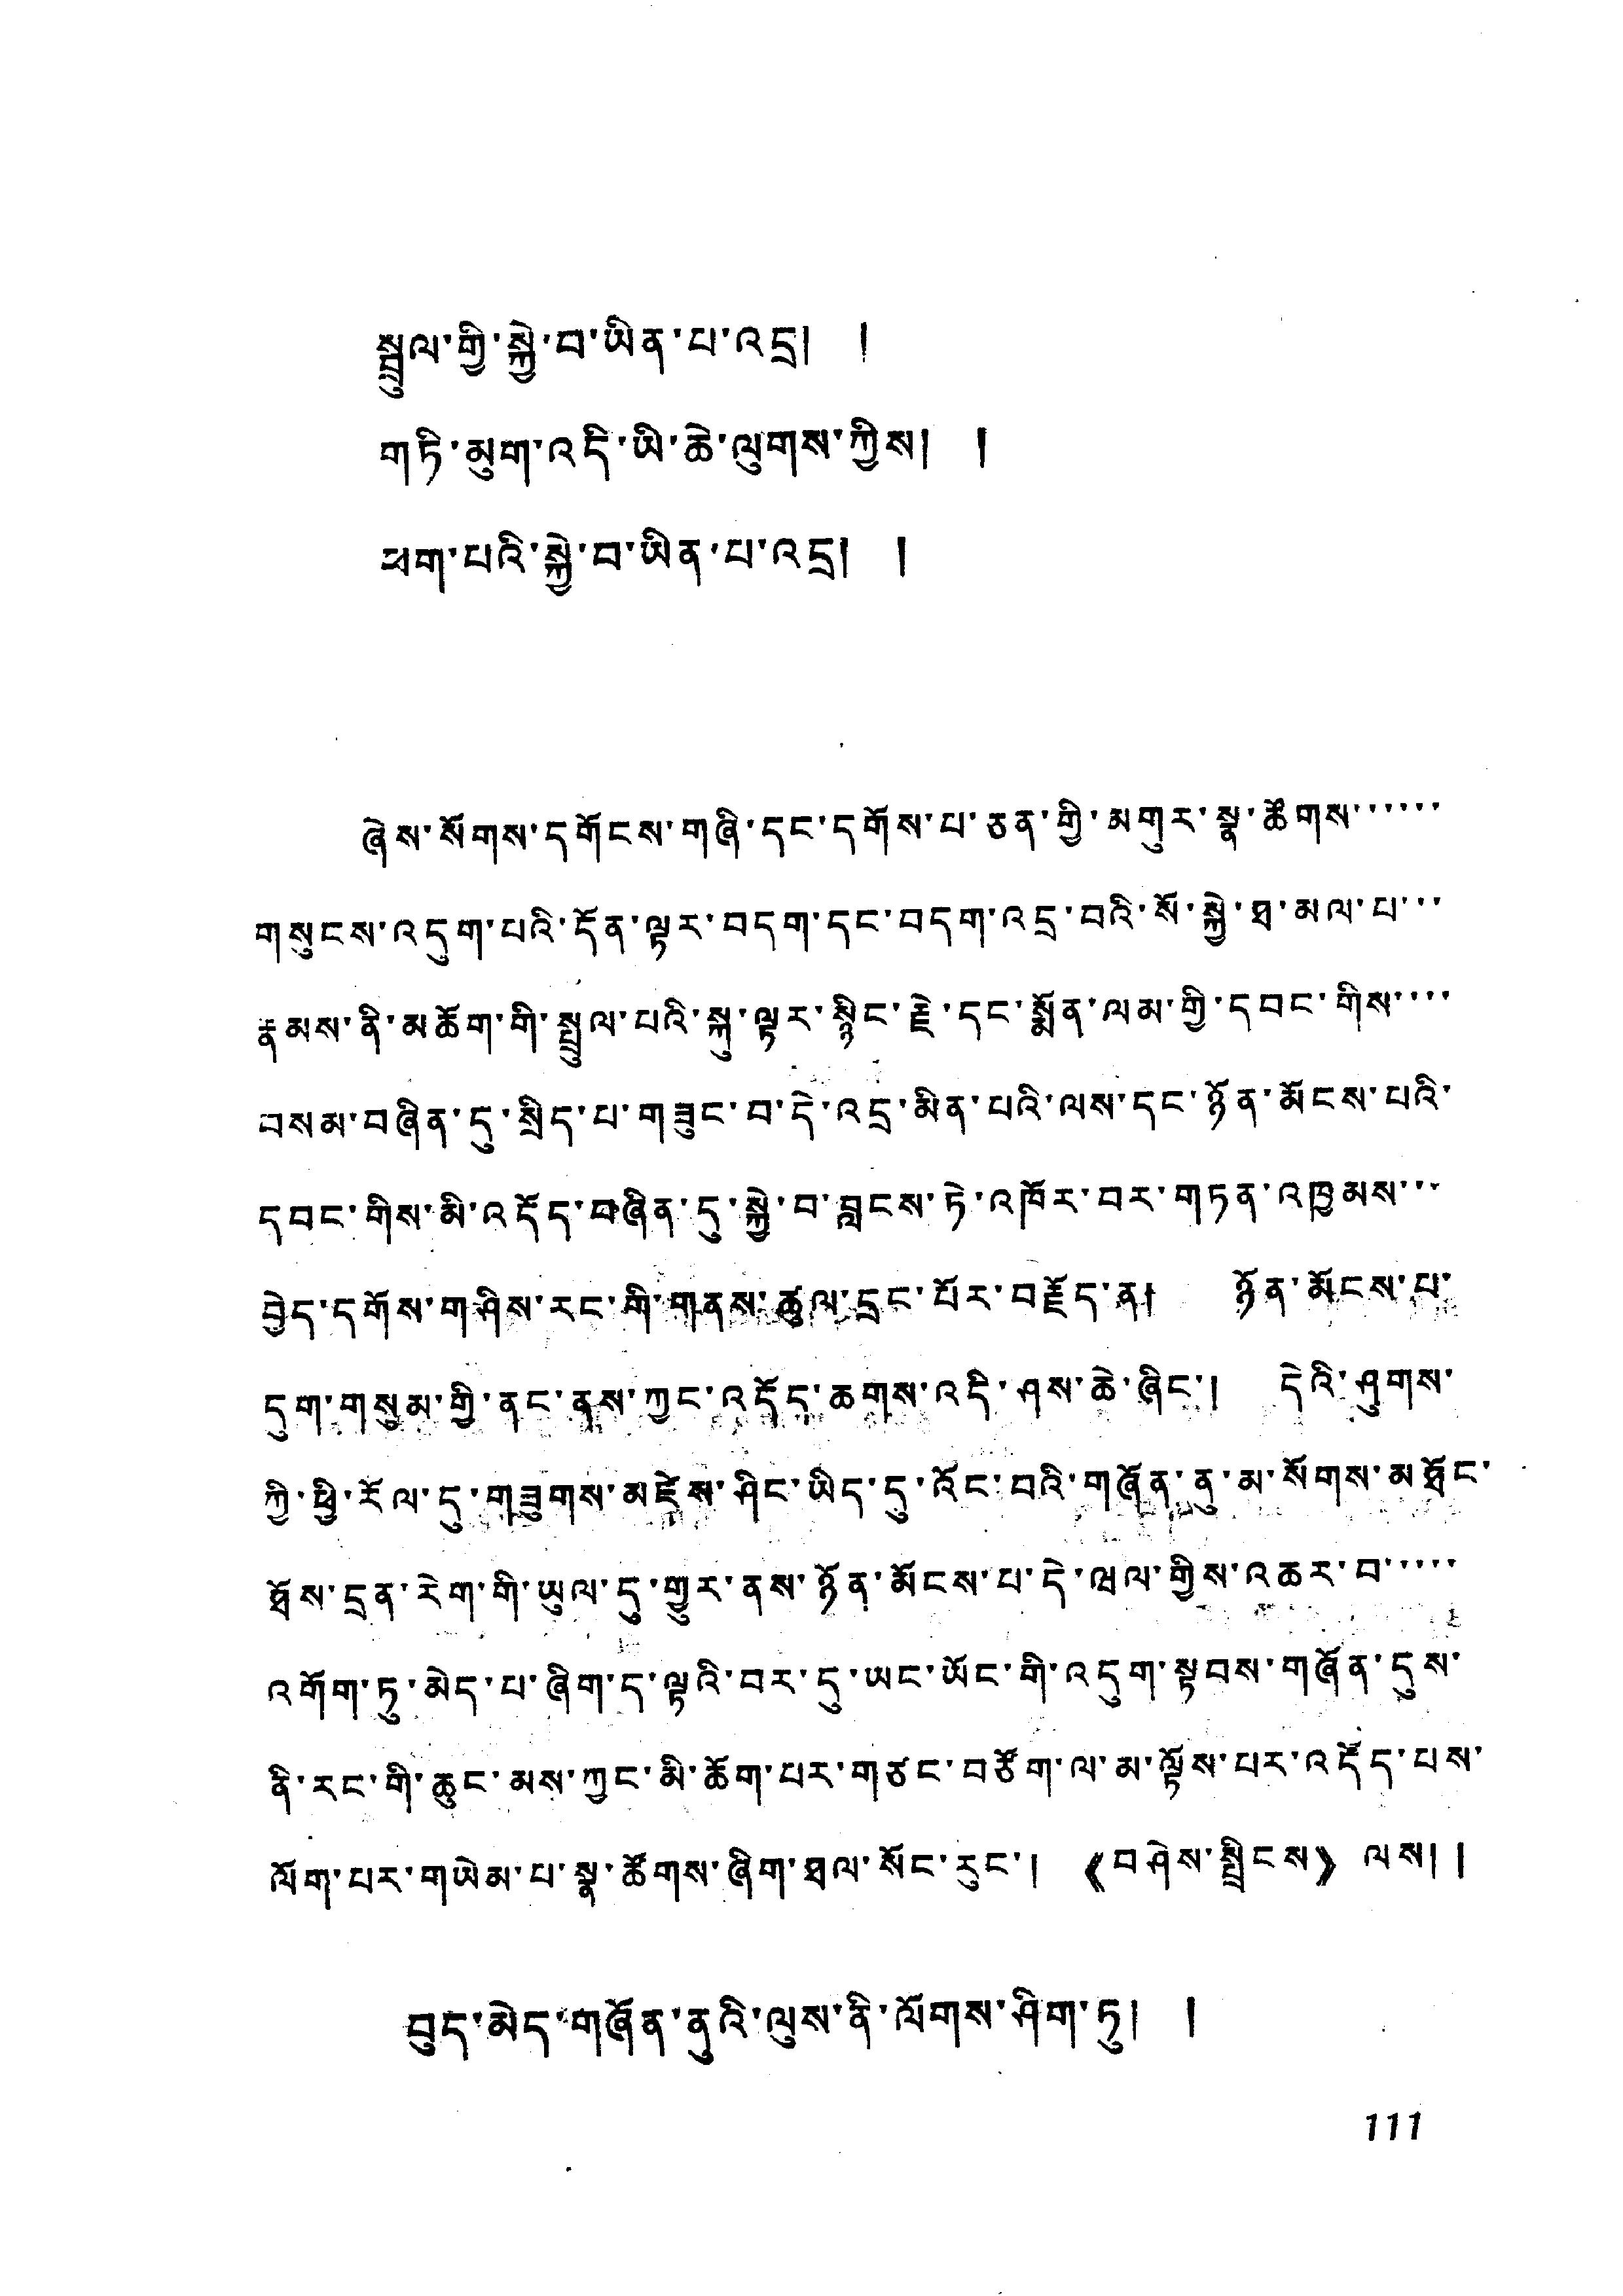སྦྲུལ་གྱི་སྐྱེ་བ་ཡིན་པ་འདྲ། །
གཏི་མུག་འདི་ཡི་ཆེ་ལུགས་ཀྱིས། །
ཕག་པའི་སྐྱེ་བ་ཡིན་པ་འདྲ། །
ཞེས་སོགས་དགོངས་གཞི་དང་དགོས་པ་ཅན་གྱི་མགུར་སྣ་ཚོགས་་་་་་
གསུངས་འདུག་པའི་དོན་ལྟར་བདག་དང་བདག་འདྲ་བའི་སོ་སྐྱེ་ཐ་མལ་པ་་་
རྣམས་ནི་མཆོག་གི་སྤྲུལ་པའི་སྐུ་ལྟར་སྙིང་རྗེ་དང་སྨོན་ལམ་གྱི་དབང་གིས་་་་
བསམ་བཞིན་དུ་སྲིད་པ་གཟུང་བ་དེ་འདྲ་མིན་པའི་ལས་དང་ཉོན་མོངས་པའི་
དབང་གིས་མི་འདོད་བཞིན་དུ་སྐྱེ་བ་བླངས་ཏེ་འཁོར་བར་གཏན་འཁྱམས་་་
བྱེད་དགོས་གཤིས་རང་གི་གནས་ཚུལ་དྲང་པོར་བརྗོད་ན། ཉོན་མོངས་པ་
དུག་གསུམ་གྱི་ནང་ནས་ཀྱང་འདོད་ཆགས་འདི་ཤས་ཆེ་ཞིང་། དེའི་ཤུགས་
ཀྱི་ཕྱི་རོལ་དུ་གཟུགས་མཛེས་ཤིང་ཡིད་དུ་འོང་བའི་གཞོན་ནུ་མ་སོགས་མཐོང་
ཐོས་དྲན་རེག་གི་ཡུལ་དུ་གྱུར་ནས་ཉོན་མོངས་པ་དེ་ཝལ་གྱིས་འཆར་བ་་་་་
འགོག་ཏུ་མེད་པ་ཞིག་ད་ལྟའི་བར་དུ་ཡང་ཡོང་གི་འདུག་སྟབས་གཞོན་དུས་
ནི་རང་གི་ཆུང་མས་ཀྱང་མི་ཆོག་པར་གཙང་བཙོག་ལ་མ་ལྟོས་པར་འདོད་པས་
ལོག་པར་གཡེམ་པ་སྣ་ཚོགས་ཞིག་ཐལ་སོང་རུང་། 《བཤེས་སྤྲིངས》ལས༎
བུད་མེད་གཞོན་ནུའི་ལུས་ནི་ལོགས་ཤིག་ཏུ། །
111
